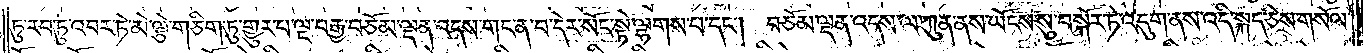ཏུ་རབ་ཏུ་འབར་ཏེ་མེ་ལྕེ་གཅིག་ཏུ་གྱུར་པ་ལྔ་བརྒྱ་བཅོམ་ལྡན་འདས་གང་ན་བ་དེར་སོང་སྟེ་ལྷགས་པ་དང༌། བཅོམ་ལྡན་འདས་ལ་ཀུན་ནས་ཡོངས་སུ་བསྐོར་ཏེ་འདུག་ནས་འདི་སྐད་ཅེས་གསོལ་
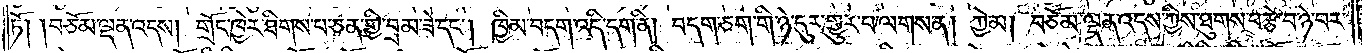ཏོ། །བཅོམ་ལྡན་འདས། གྲོང་ཁྱེར་ཐིགས་པ་ཅན་གྱི་བྲམ་ཟེ་དང༌། ཁྱིམ་བདག་འདི་དག་ནི། བདག་ཅག་གི་ཉེ་དུར་གྱུར་པ་ལགས་ན། ཀྱེ་མ། བཅོམ་ལྡན་འདས་ཀྱིས་ཐུགས་བརྩེ་བ་ཉེ་བར་
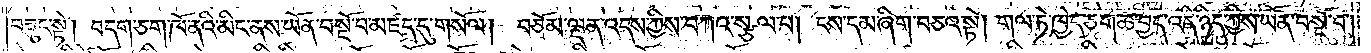བཟུང་སྟེ། བདག་ཅག་ཁོ་ནའི་མིང་ནས་ཡོན་བསྔོ་བ་མཛད་དུ་གསོལ། བཅོམ་ལྡན་འདས་ཀྱིས་བཀའ་སྩལ་པ། ངས་དམ་ཞིག་བཅའ་སྟེ། གལ་ཏེ་ཁྱེད་ཅག་ཆ་བྱད་འདི་ཉིད་ཀྱིས་ཡོན་བསྔོ་བ་
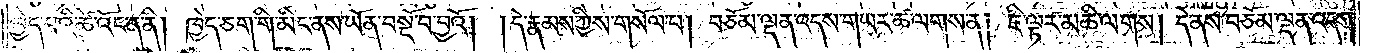བྱེད་པའི་ཚེ་འོང་ན་ནི། ཁྱེད་ཅག་གི་མིང་ནས་ཡོན་བསྔོ་བ་བྱའོ། །དེ་རྣམས་ཀྱིས་གསོལ་བ། བཅོམ་ལྡན་འདས་གཡར་ཚ་ལགས་ན། ཇི་ལྟར་མཆི་ལགས། དེ་ནས་བཅོམ་ལྡན་འདས་
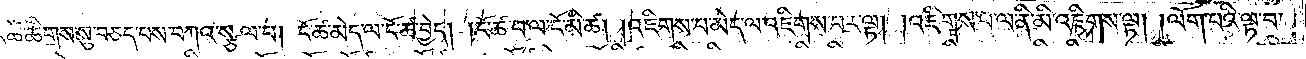ཀྱིས། དེའི་ཚེ་ཚིགས་སུ་བཅད་པས་བཀའ་སྩལ་པ། ངོ་ཚ་མེད་ལ་ངོ་ཚ་བྱེད། །ངོ་ཚ་བ་ལ་ངོ་མི་ཚ། །འཇིགས་པ་མེད་ལ་འཇིགས་པར་ལྟ། །འཇིགས་པ་ལ་ནི་མི་འཇིགས་ལྟ། །ལོག་པའི་ལྟ་བ་
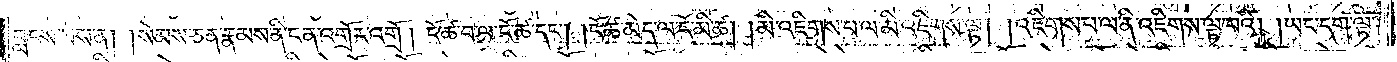བླངས་པས་ན། །སེམས་ཅན་རྣམས་ནི་ངན་འགྲོར་འགྲོ། །ངོ་ཚ་བ་ངོ་ཚ་དང༌། །ངོ་ཚ་མེད་ལ་ངོ་མི་ཚེ། །མི་འཇིགས་པ་ལ་མི་འཇིགས་ལྟ། །འཇིགས་པ་ལ་ནི་འཇིགས་ལྟ་བའི། །ཡང་དག་ལྟ་
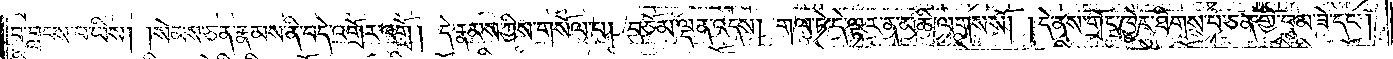བ་བླངས་པ་ཡིས། །སེམས་ཅན་རྣམས་ནི་བདེ་འགྲོར་འགྲོ། །དེ་རྣམས་ཀྱིས་གསོལ་བ། བཅོམ་ལྡན་འདས། གལ་ཏེ་དེ་ལྟར་ན་མཆི་ལགས་སོ། །དེ་ནས་གྲོང་ཁྱེར་ཐིགས་པ་ཅན་གྱི་བྲམ་ཟེ་དང༌།
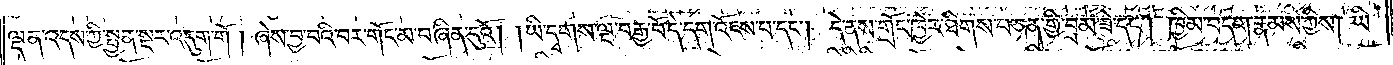ལྡན་འདས་ཀྱི་སྤྱན་སྔར་འདུག་གོ །ཞེས་བྱ་བའི་བར་གོང་མ་བཞིན་དུའོ། །ཡི་དྭགས་ལྔ་བརྒྱ་པོ་དེ་དག་འོངས་པ་དང༌། དེ་ནས་གྲོང་ཁྱེར་ཐིགས་པ་ཅན་གྱི་བྲམ་ཟེ་དང༌། ཁྱིམ་བདག་རྣམས་ཀྱིས། ཡི་
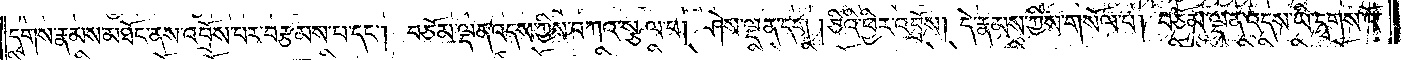དྭགས་རྣམས་མཐོང་ནས་འབྲོས་པར་བརྩམས་པ་དང༌། བཅོམ་ལྡན་འདས་ཀྱིས་བཀའ་སྩལ་པ། ཤེས་ལྡན་དག །ཅིའི་ཕྱིར་འབྲོས། དེ་རྣམས་ཀྱིས་གསོལ་པ། བཅོམ་ལྡན་འདས་ཡི་དྭགས་འོ་
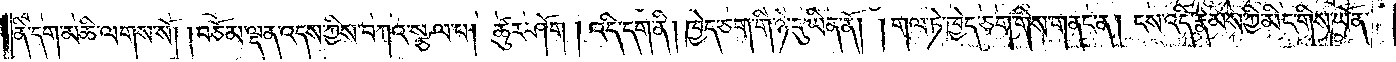ནི་དག་མཆི་ལགས་སོ། །བཅོམ་ལྡན་འདས་ཀྱིས་བཀའ་སྩལ་པ། ཚུར་ཤོག །འདི་དག་ནི། ཁྱེད་ཅག་གི་ཉེ་དུ་ཡིན་ནོ། །གལ་ཏེ་ཁྱེད་ཅག་གིས་གནང་ན། ངས་འདི་རྣམས་ཀྱི་མིང་གིས་ཡོན་
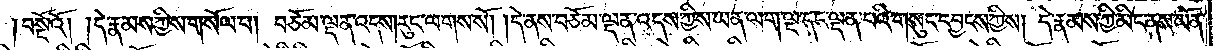།བསྔོའོ། །དེ་རྣམས་ཀྱིས་གསོལ་བ། བཅོམ་ལྡན་འདས། རུང་ལགས་སོ། །དེ་ནས་བཅོམ་ལྡན་འདས་ཀྱིས་ཡན་ལག་ལྔ་དང་ལྡན་པའི་གསུང་དབྱངས་ཀྱིས། དེ་རྣམས་ཀྱི་མིང་ནས་ཡོན་
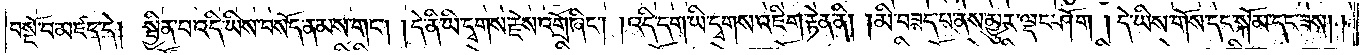བསྔོ་བ་མཛད་དེ། སྦྱིན་པ་འདི་ཡིས་བསོད་ནམས་གང༌། །དེ་ནི་ཡི་དྭགས་རྗེས་འགྲོ་ཞིང༌། །འདི་དག་ཡི་དྭགས་འཇིག་རྟེན་ནི། །མི་བཟད་པ་ནས་མྱུར་ལྡང་ཤོག །དེ་ཡིས་གོས་དང་སྐོམ་དང་ཟས༎
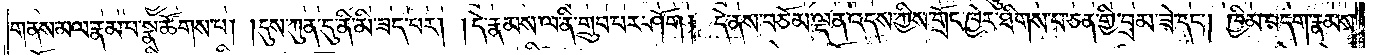གནས་མལ་རྣམ་པ་སྣ་ཚོགས་པ། །དུས་ཀུན་དུ་ནི་མི་ཟད་པར། །དེ་རྣམས་ལ་ནི་གྲུབ་པར་ཤོག། དེ་ནས་བཅོམ་ལྡན་འདས་ཀྱིས་གྲོང་ཁྱེར་ཐིགས་པ་ཅན་གྱི་བྲམ་ཟེ་དང༌། ཁྱིམ་བདག་རྣམས་
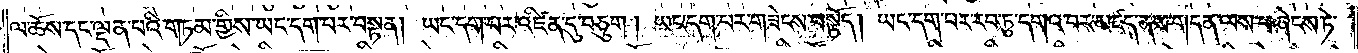ལ་ཆོས་དང་ལྡན་པའི་གཏམ་གྱིས་ཡང་དག་པར་བསྟན། ཡང་དག་པར་འཛིན་དུ་བཅུག །ཡང་དག་པར་གཟེངས་བསྟོད། ཡང་དག་པར་རབ་ཏུ་དགའ་བར་མཛད་ནས་གདན་ལས་བཞེངས་ཏེ་
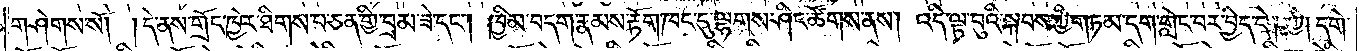གཤེགས་སོ། །དེ་ནས་གྲོང་ཁྱེར་ཐིགས་པ་ཅན་གྱི་བྲམ་ཟེ་དང༌། ཁྱིམ་བདག་རྣམས་རྟོག་ཁང་དུ་ལྷགས་ཤིང་ཚོགས་ནས། འདི་ལྟ་བུའི་སྐབས་ཀྱི་གཏམ་དག་གླེང་བར་བྱེད་དེ། ཀྱེ། དགེ་
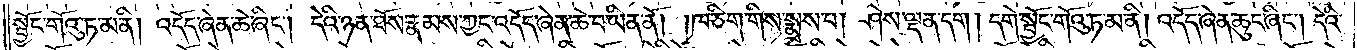སྦྱོང་གོའུ་ཏ་མ་ནི། འདོད་ཞེན་ཆེ་ཞིང༌། དེའི་ཉན་ཐོས་རྣམས་ཀྱང་འདོད་ཞེན་ཆེ་བ་ཡིན་ནོ། །ཁ་ཅིག་གིས་སྨྲས་པ། ཤེས་ལྡན་དག །དགེ་སྦྱོང་གོའུ་ཏ་མ་ནི། འདོད་ཞེན་ཆུང་ཞིང༌། དེའི་
